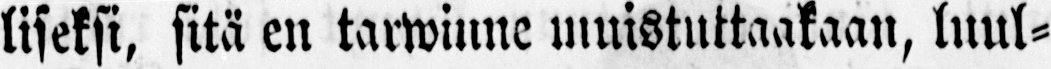liseksi, sitä en tarwinne muistuttakaan, luul-
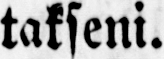takseni.
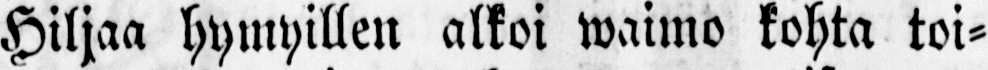Hiljaa hymyillen alkoi waimo kohta toi-
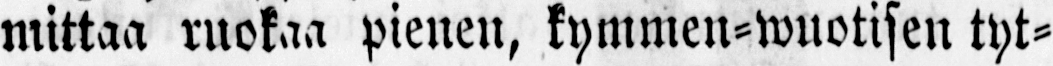mittaa ruokaa pienen, kymmen-wuotisen tyt-
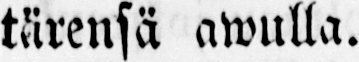tärensä awulla.
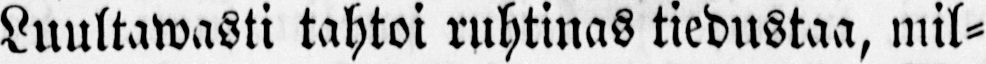Luultawasti tahtoi ruhtinas tiedustaa, mil-
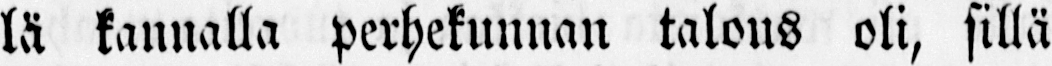lä kannalla perhekunnan talous oli, sillä
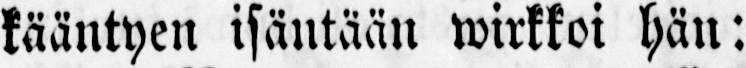kääntyen isäntään wirkkoi hän:
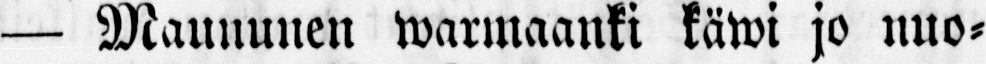— Maununen warmaanki käwi jo nuo-
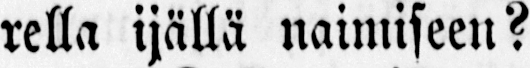rella ijällä naimiseen?
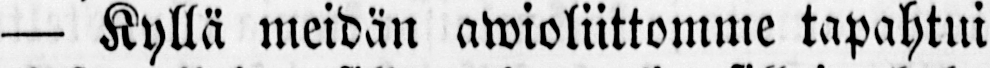— Kyllä meidän awioliittomme tapahtui
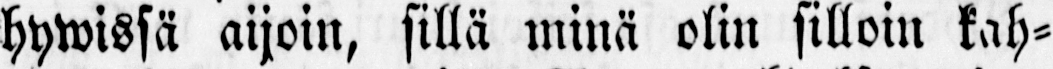hywissä aijoin, sillä minä olin silloin kah-
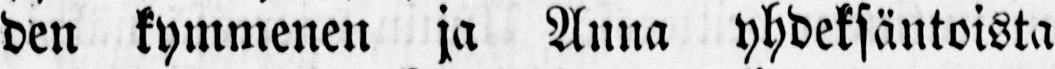den kymmenen ja Anna yhdeksäntoista
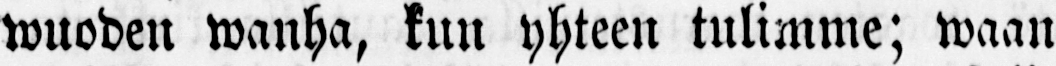wuoden wanha, kun yhteen tulimme; waan
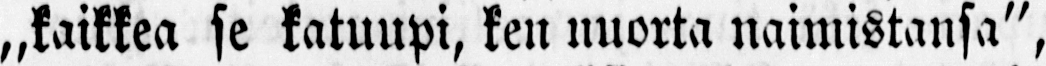„kaikkea se katuupi, ken nuorta naimistansa",
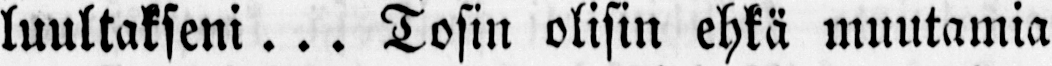luultakseni... Tosin olisin ehkä muutamia
